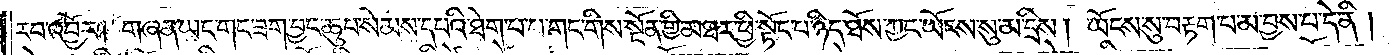རབ་འབྱོར། གཞན་ཡང་གང་ཟག་བྱང་ཆུབ་སེམས་དཔའི་ཐེག་པ་པ་གང་གིས་སྔོན་གྱི་མཐར་ཕྱི་སྟོང་པ་ཉིད་ཐོས་ཀྱང་ཡོངས་སུ་མ་དྲིས། ཡོངས་སུ་བརྟག་པ་མ་བྱས་པ་དེ་ནི།
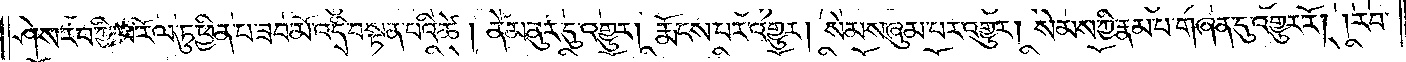ཤེས་རབ་ཀྱི་ཕ་རོལ་ཏུ་ཕྱིན་པ་ཟབ་མོ་འདི་བསྟན་པའི་ཚེ། ནེམ་ནུར་དུ་འགྱུར། རྨོངས་པར་འགྱུར། སེམས་ཞུམ་པར་འགྱུར། སེམས་ཀྱི་རྣམ་པ་གཞན་དུ་འགྱུར་རོ། །རབ་
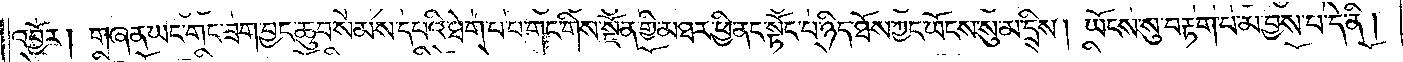འབྱོར། གཞན་ཡང་གང་ཟག་བྱང་ཆུབ་སེམས་དཔའི་ཐེག་པ་པ་གང་གིས་སྔོན་གྱི་མཐར་ཕྱི་ནང་སྟོང་པ་ཉིད་ཐོས་ཀྱང་ཡོངས་སུ་མ་དྲིས། ཡོངས་སུ་བརྟག་པ་མ་བྱས་པ་དེ་ནི།
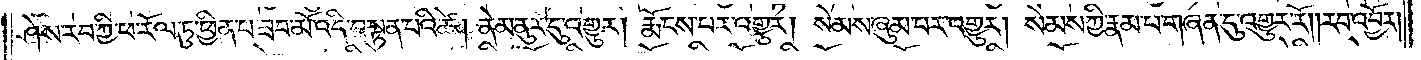ཤེས་རབ་ཀྱི་ཕ་རོལ་ཏུ་ཕྱིན་པ་ཟབ་མོ་འདི་བསྟན་པའི་ཚེ། ནེམ་ནུར་དུ་འགྱུར། རྨོངས་པར་འགྱུར། སེམས་ཞུམ་པར་འགྱུར། སེམས་ཀྱི་རྣམ་པ་གཞན་དུ་འགྱུར་རོ། །རབ་འབྱོར།
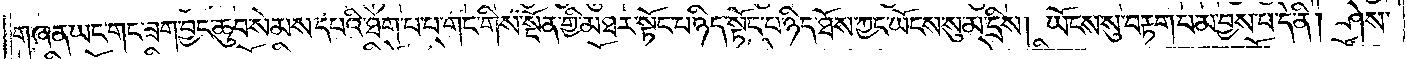གཞན་ཡང་གང་ཟག་བྱང་ཆུབ་སེམས་དཔའི་ཐེག་པ་པ་གང་གིས་སྔོན་གྱི་མཐར་སྟོང་པ་ཉིད་སྟོང་པ་ཉིད་ཐོས་ཀྱང་ཡོངས་སུ་མ་དྲིས། ཡོངས་སུ་བརྟག་པ་མ་བྱས་པ་དེ་ནི། ཤེས་
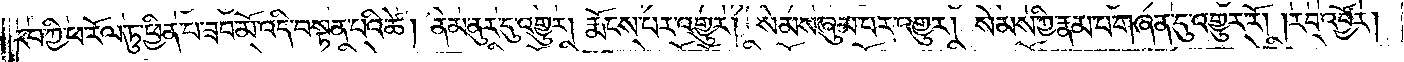རབ་ཀྱི་ཕ་རོལ་ཏུ་ཕྱིན་པ་ཟབ་མོ་འདི་བསྟན་པའི་ཚེ། ནེམ་ནུར་དུ་འགྱུར། རྨོངས་པར་འགྱུར། སེམས་ཞུམ་པར་འགྱུར། སེམས་ཀྱི་རྣམ་པ་གཞན་དུ་འགྱུར་རོ། །རབ་འབྱོར།
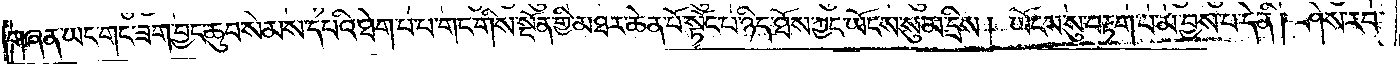གཞན་ཡང་གང་ཟག་བྱང་ཆུབ་སེམས་དཔའི་ཐེག་པ་པ་གང་གིས་སྔོན་གྱི་མཐར་ཆེན་པོ་སྟོང་པ་ཉིད་ཐོས་ཀྱང་ཡོངས་སུ་མ་དྲིས། ཡོངས་སུ་བརྟག་པ་མ་བྱས་པ་དེ་ནི། ཤེས་རབ་
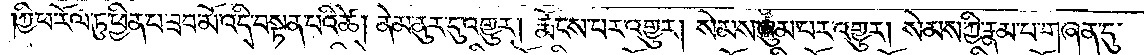ཀྱི་ཕ་རོལ་ཏུ་ཕྱིན་པ་ཟབ་མོ་འདི་བསྣན་པའི་ཚེ། ནེམ་ནུར་དུ་འགྱུར། རྨོངས་པར་འགྱུར། སེམས་ཞུམ་པར་འགྱུར། སེམས་ཀྱི་རྣམ་པ་གཞན་དུ་
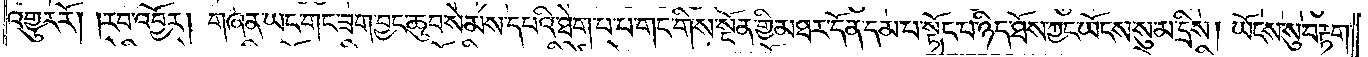འགྱུར་རོ། །རབ་འབྱོར། གཞན་ཡང་གང་ཟག་བྱང་ཆུབ་སེམས་དཔའི་ཐེག་པ་པ་གང་གིས་སྔོན་གྱི་མཐར་དོན་དམ་པ་སྟོང་པ་ཉིད་ཐོས་ཀྱང་ཡོངས་སུ་མ་དྲིས། ཡོངས་སུ་བརྟག་
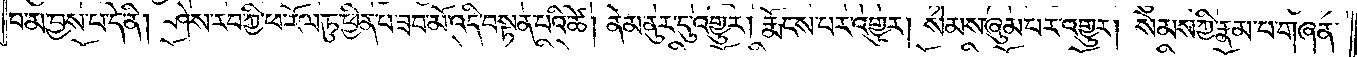པ་མ་བྱས་པ་དེ་ནི། ཤེས་རབ་ཀྱི་ཕ་རོལ་ཏུ་ཕྱིན་པ་ཟབ་མོ་འདི་བསྟན་པའི་ཚེ། ནེམ་ནུར་དུ་འགྱུར། རྨོངས་པར་འགྱུར། སེམས་ཞུམ་པར་འགྱུར། སེམས་ཀྱི་རྣམ་པ་གཞན་
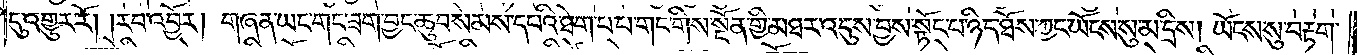དུ་འགྱུར་རོ། །རབ་འབྱོར། གཞན་ཡང་གང་ཟག་བྱང་ཆུབ་སེམས་དཔའི་ཐེག་པ་པ་གང་གིས་སྔོན་གྱི་མཐར་འདུས་བྱས་སྟོང་པ་ཉིད་ཐོས་ཀྱང་ཡོངས་སུ་མ་དྲིས། ཡོངས་སུ་བརྟག་
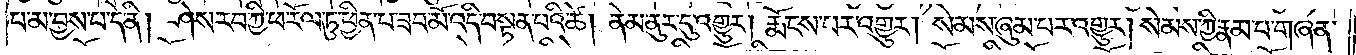པ་མ་བྱས་པ་དེ་ནི། ཤེས་རབ་ཀྱི་ཕ་རོལ་ཏུ་ཕྱིན་པ་ཟབ་མོ་འདི་བསྟན་པའི་ཚེ། ནེམ་ནུར་དུ་འགྱུར། རྨོངས་པར་འགྱུར། སེམས་ཞུམ་པར་འགྱུར། སེམས་ཀྱི་རྣམ་པ་གཞན་
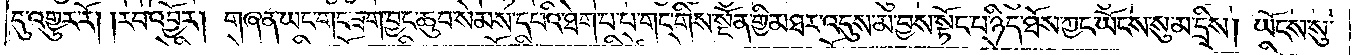དུ་འགྱུར་རོ། །རབ་འབྱོར། གཞན་ཡང་གང་ཟག་བྱང་ཆུབ་སེམས་དཔའི་ཐེག་པ་པ་གང་གིས་སྔོན་གྱི་མཐར་འདུས་མ་བྱས་སྟོང་པ་ཉིད་ཐོས་ཀྱང་ཡོངས་སུ་མ་དྲིས། ཡོངས་སུ་
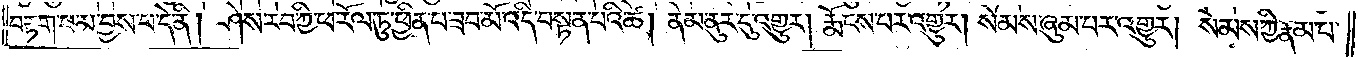བརྟག་པ་མ་བྱས་པ་དེ་ནི། ཤེས་རབ་ཀྱི་ཕ་རོལ་ཏུ་ཕྱིན་པ་ཟབ་མོ་འདི་བསྟན་པའི་ཚེ། ནེམ་ནུར་དུ་འགྱུར། རྨོངས་པར་འགྱུར། སེམས་ཞུམ་པར་འགྱུར། སེམས་ཀྱི་རྣམ་པ་
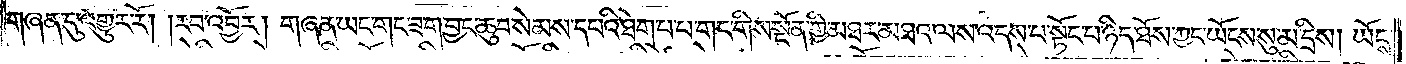གཞན་དུ་འགྱུར་རོ། །རབ་འབྱོར། གཞན་ཡང་གང་ཟག་བྱང་ཆུབ་སེམས་དཔའི་ཐེག་པ་པ་གང་གིས་སྔོན་གྱི་མཐར་མཐའ་ལས་འདས་པ་སྟོང་པ་ཉིད་ཐོས་ཀྱང་ཡོངས་སུ་མ་དྲིས། ཡོངས་
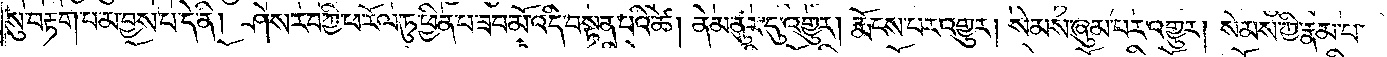སུ་བརྟག་པ་མ་བྱས་པ་དེ་ནི། ཤེས་རབ་ཀྱི་ཕ་རོལ་ཏུ་ཕྱིན་པ་ཟབ་མོ་འདི་བསྟན་པའི་ཚེ། ནེམ་ནུར་དུ་འགྱུར། རྨོངས་པར་འགྱུར། སེམས་ཞུམ་པར་འགྱུར། སེམས་ཀྱི་རྣམ་པ་
